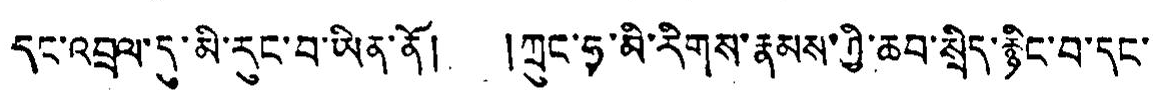དང་འབྲུལ་དུ་མི་རུང་བ་ཡིན་ནོ། །ཀྲུང་ཧྭ་མི་རིགས་རྣམས་ཀྱི་ཆབ་སྲིད་རྙིང་བ་དང་
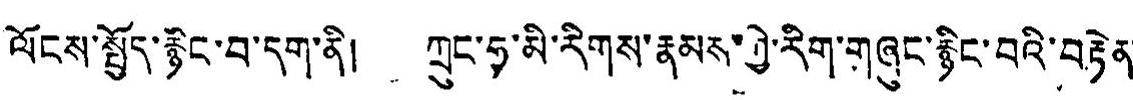ལོངས་སྤྱོད་རྙིང་བ་དག་ནི། ཀྲུང་ཧྭ་མི་རིགས་རྣམར་གྱི་རིག་གཞུང་རྙིང་བའི་བརྟེན་
